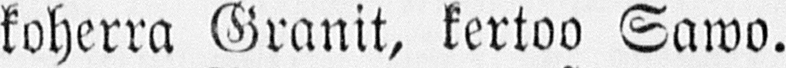koherra Granit, kertoo Sawo.
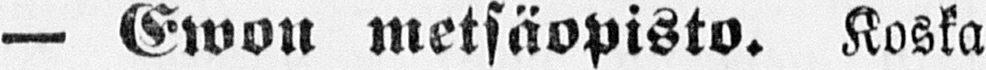— Ewon metsäopisto. Koska
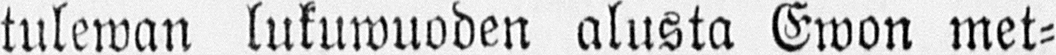tulewan lukuwuoden alusta Ewon met-
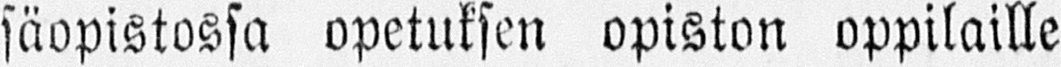säopistossa opetuksen opiston oppilaille
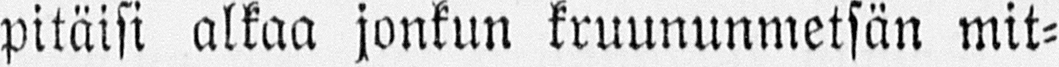pitäisi alkaa jonkun kruununmetsän mit-
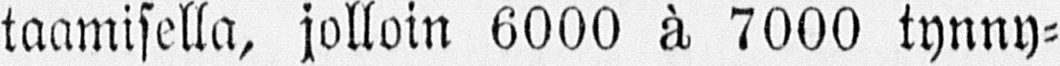taamisella, jolloin 6000 à 7000 tynny-
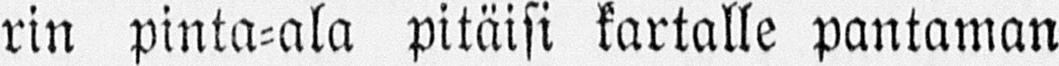rin pinta-ala pitäisi kartalle pantaman
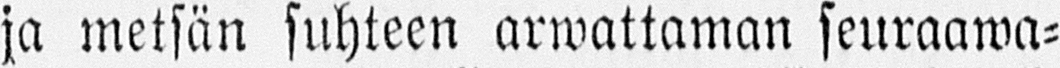ja metsän suhteen arwattaman seuraawa-
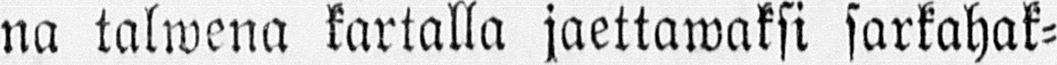na talwena kartalla jaettawaksi sarkahak-
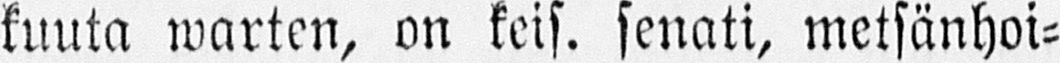kuuta warten, on keis. senati, metsänhoi-
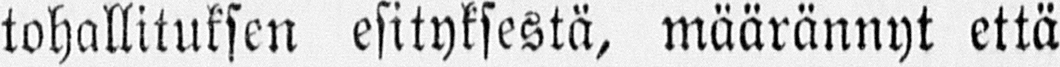tohallituksen esityksestä, määrännyt että
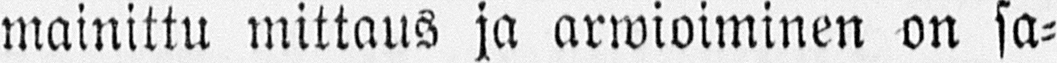mainittu mittaus ja arwioiminen on sa-
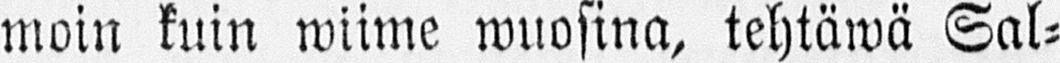moin kuin wiime wuosina, tehtäwä Sal-
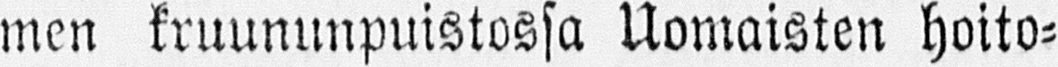men kruununpuistossa Uomaisten hoito-
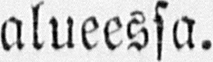alueessa.
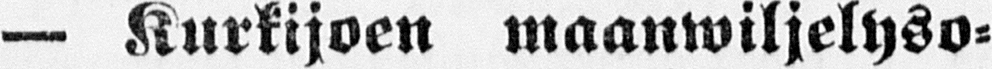— Kurkijoen maanwiljelyso-
